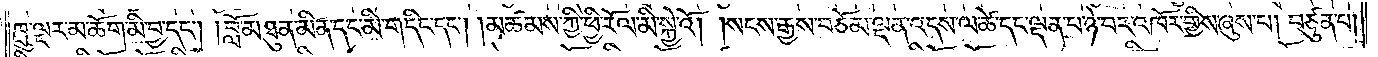ཁྲུ་ལྔར་མ་ཆོག་མི་བྱ་དང༌། །བློ་མཐུན་མིན་དང་མི་གདིང་དང༌། །མཚམས་ཀྱི་ཕྱི་རོལ་མི་སྐྱེའོ། །སངས་རྒྱས་བཅོམ་ལྡན་འདས་ལ་ཚེ་དང་ལྡན་པ་ཉེ་བར་འཁོར་གྱིས་ཞུས་པ། བཙུན་པ།
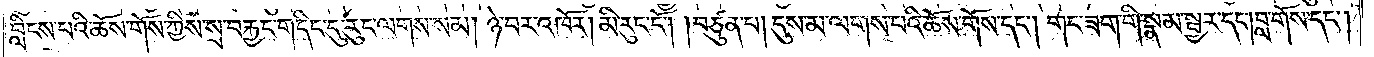བླིངས་པའི་ཆོས་གོས་ཀྱིས་སྲ་བརྐྱང་གདིང་དུ་རུང་ལགས་སམ། ཉེ་བར་འཁོར། མི་རུང་ངོ༌། །བཙུན་པ། དུས་མ་ལགས་པའི་ཆོས་གོས་དང༌། གང་ཟག་གི་སྣམ་སྦྱར་དང༌། བླ་གོས་དང༌།
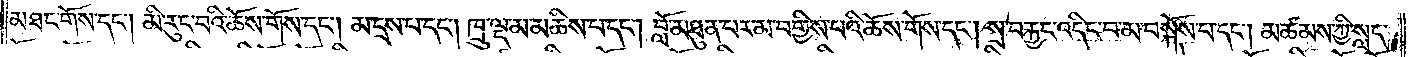མཐང་གོས་དང༌། མི་རུང་བའི་ཆོས་གོས་དང༌། མ་དྲས་པ་དང༌། ཁྲུ་ལྔ་མ་མཆིས་པ་དང༌། བློ་མཐུན་པར་མ་བགྱིས་པའི་ཆོས་གོས་དང༌། སྲ་བརྐྱང་འདིང་བ་མ་བསྐོས་པ་དང༌། མཚམས་ཀྱི་སླད་
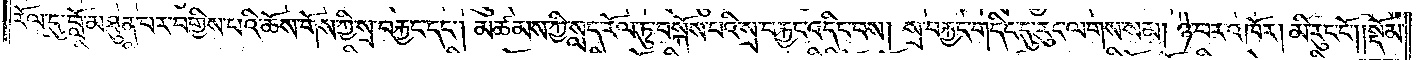རོལ་དུ་བློ་མཐུན་པར་བགྱིས་པའི་ཆོས་གོས་ཀྱི་སྲ་བརྐྱང་དང༌། མཚམས་ཀྱི་སླད་རོལ་ཏུ་བསྐོས་པའི་སྲ་བརྐྱང་འདིང་བས། སྲ་བརྐྱང་གདིང་དུ་རུང་ལགས་སམ། ཉེ་བར་འཁོར། མི་རུང་ངོ༌།    །སྡོམ་
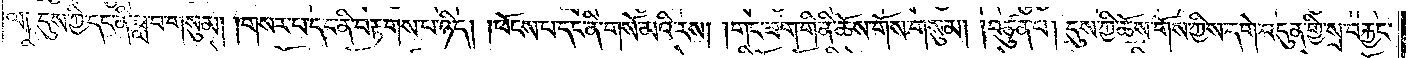ལ༑ དུས་ཀྱི་དང་ནི་ཟླ་བ་གསུམ། །གསར་པ་དང་ནི་བརྟགས་པ་ཉིད། །ཕོངས་པ་དང་ནི་གསོ་མའི་རས། །གང་ཟག་གི་ནི་ཆོས་གོས་གསུམ། །བཙུན་པ། དུས་ཀྱི་ཆོས་གོས་ཀྱིས་དགེ་འདུན་གྱི་སྲ་བརྐྱང་
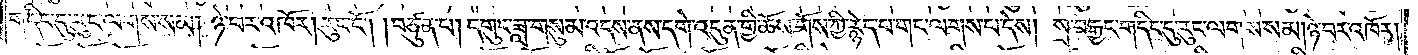གདིང་དུ་རུང་ལགས་སམ། ཉེ་བར་འཁོར། རུང་ངོ༌། །བཙུན་པ། དགུང་ཟླ་གསུམ་འདས་ནས་དགེ་འདུན་གྱི་ཆོས་གོས་ཀྱི་རྙེད་པ་གང་ལགས་པ་དེས། སྲ་བརྐྱངས་གདིང་དུ་རུང་ལགས་སམ། ཉེ་བར་འཁོར།
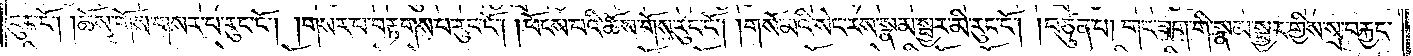རུང་ངོ༌། །ཆོས་གོས་གསར་པ་རུང་ངོ༌། །གསར་པ་བརྟགས་པ་རུང་ངོ༌། །ཕོངས་པའི་ཆོས་གོས་རུང་ངོ༌། །གསོ་མའི་སེང་རས་སྣམ་སྦྱར་མི་རུང་ངོ༌། །བཙུན་པ། གང་ཟག་གི་སྣམ་སྦྱར་གྱིས་སྲ་བརྐྱང་
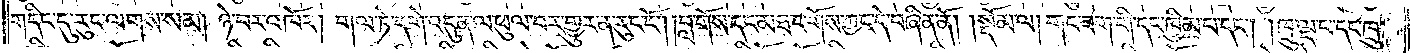གདིང་དུ་རུང་ལགས་སམ། ཉེ་བར་འཁོར། གལ་ཏེ་དགེ་འདུན་ལ་ཕུལ་བར་གྱུར་ན་རུང་ངོ༌། །བླ་གོས་དང་མཐང་གོས་ཀྱང་དེ་བཞིན་ནོ།    །སྡོམ་ལ། གང་ཟག་གི་དང་ཁྱིམ་པ་དང༌། ཁྲུ་ལྔ་པ་དང་ཁྲུ་
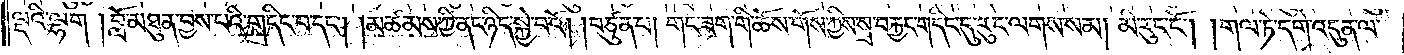ལྔའི་ལྷག །བློ་མཐུན་བྱས་པའི་གདིང་བ་དང༌། །མཚམས་ཀྱི་ནང་ཉིད་སྐྱེ་བའོ། །བཙུན་པ། གང་ཟག་གི་ཆོས་གོས་ཀྱིས་སྲ་བརྐྱང་གདིང་དུ་རུང་ལགས་སམ། མི་རུང་ངོ༌། །གལ་ཏེ་དགེ་འདུན་ལ་
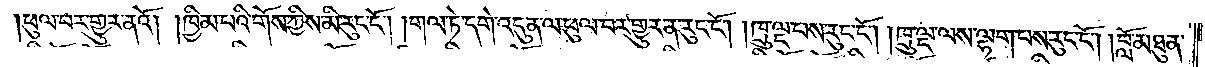ཕུལ་བར་གྱུར་ནའོ། །ཁྱིམ་པའི་གོས་ཀྱིས་མི་རུང་ངོ༌། །གལ་ཏེ་དགེ་འདུན་ལ་ཕུལ་བར་གྱུར་ན་རུང་ངོ༌། །ཁྲུ་ལྔ་པས་རུང་ངོ༌། །ཁྲུ་ལྔ་ལས་ལྷག་པས་རུང་ངོ༌། །བློ་མཐུན་
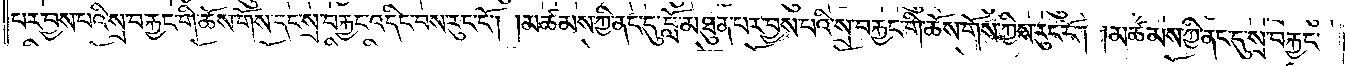པར་བྱས་པའི་སྲ་བརྐྱང་གི་ཆོས་གོས་དང་སྲ་བརྐྱང་འདིང་བས་རུང་ངོ༌། །མཚམས་ཀྱི་ནང་དུ་བློ་མཐུན་པར་བྱས་པའི་སྲ་བརྐྱང་གི་ཆོས་གོས་ཀྱིས་རུང་ངོ༌། །མཚམས་ཀྱི་ནང་དུ་སྲ་བརྐྱང་
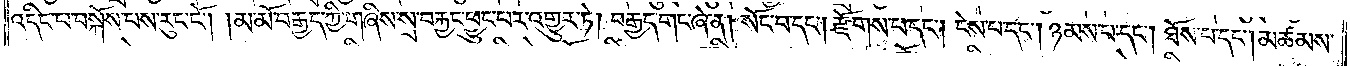འདིང་པ་བསྐོས་པས་རུང་ངོ༌། །མ་མོ་བརྒྱད་ཀྱི་གཞིས་སྲ་བརྐྱང་ཕྱུང་བར་འགྱུར་ཏེ། བརྒྱད་གང་ཞེ་ན། སོང་བ་དང༌། རྫོགས་པ་དང༌། ངེས་པ་དང༌། ཉམས་པ་དང༌། ཐོས་པ་དང༌། མཚམས་
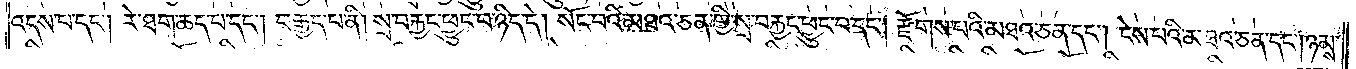འདས་པ་དང༌། རེ་ཐག་ཆད་པ་དང༌། བརྒྱད་པ་ནི། སྲ་བརྐྱང་ཕྱུང་བ་ཉིད་དེ། སོང་བའི་མཐའ་ཅན་གྱི་སྲ་བརྐྱང་ཕྱུང་བ་དང༌། རྫོགས་པའི་མཐའ་ཅན་དང༌། ངེས་པའི་མཐའ་ཅན་དང༌། ཉམས་
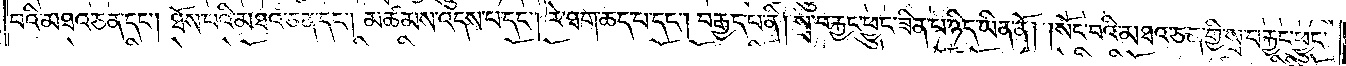པའི་མཐའ་ཅན་དང༌། ཐོས་པའི་མཐའ་ཅན་དང༌། མཚམས་འདས་པ་དང༌། རེ་ཐག་ཆད་པ་དང༌། བརྒྱད་པ་ནི། སྲ་བརྐྱང་ཕྱུང་ཟིན་པ་ཉིད་ཡིན་ནོ། །སོང་བའི་མཐའ་ཅན་གྱི་སྲ་བརྐྱང་ཕྱུང་
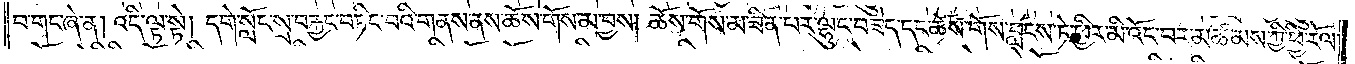བ་གང་ཞེ་ན། འདི་ལྟ་སྟེ། དགེ་སློང་སྲ་བརྐྱང་བཏིང་བའི་གནས་ནས་ཆོས་གོས་མ་བྱས། ཆོས་གོས་མ་ཟིན་པར་ལྷུང་བཟེད་དང་ཆོས་གོས་བླངས་ཏེ་ཕྱིར་མི་འོང་བར་མཚམས་ཀྱི་ཕྱི་རོལ་
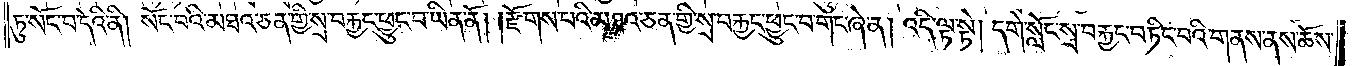ཏུ་སོང་བ་དེའི་ནི། སོང་བའི་མཐའ་ཅན་གྱི་སྲ་བརྐྱང་ཕྱུང་བ་ཡིན་ནོ། །རྫོགས་པའི་མཐའ་ཅན་གྱི་སྲ་བརྐྱང་ཕྱུང་བ་གང་ཞེ་ན། འདི་ལྟ་སྟེ། དགེ་སློང་སྲ་བརྐྱང་བཏིང་བའི་གནས་ནས་ཆོས་
